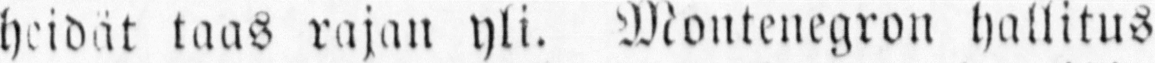heidät taas rajan yli. Montenegron hallitus
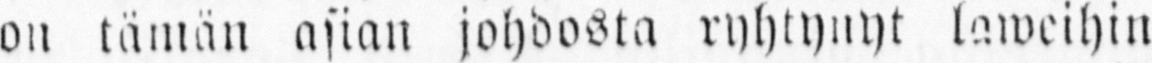on tämän asian johdosta ryhtynyt laweihin
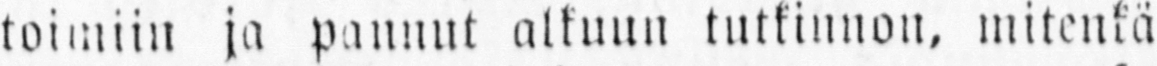toimiin ja pannut alkuun tutkinnon, mitenkä
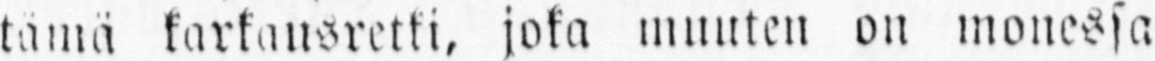tämä karkausretki, joka muuten on monessa
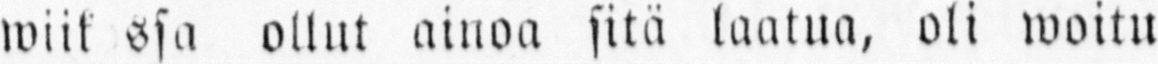wiikossa ollut ainoa sitä laatua, oli woitu
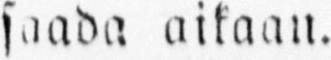saada aikaan.
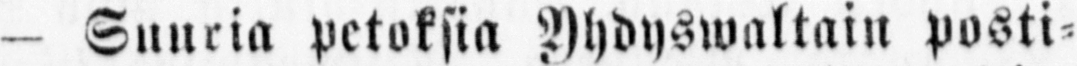— Suuria petoksia Yhdywaltain posti-
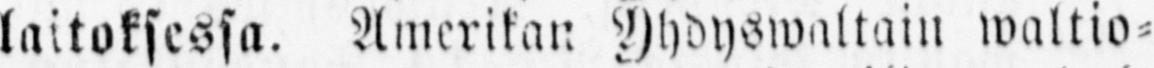laitoksessa. Amerikan Yhdyswaltain waltio-
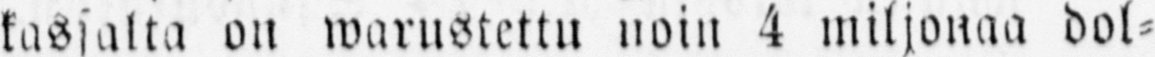kassalta on warustettu noin 4 miljonaa dol-
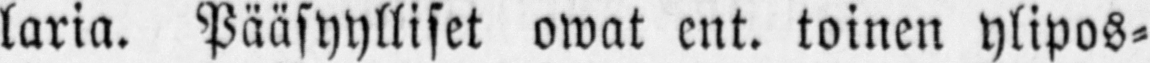laria. Pääsyylliset owat ent. toinen ylipos-
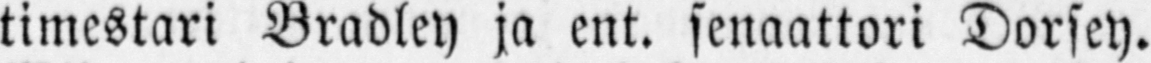timestari Bradley ja ent. senaattori Dorsey.
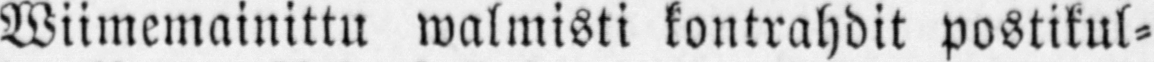Wiimemainittu walmisti kontrahdit postikul-
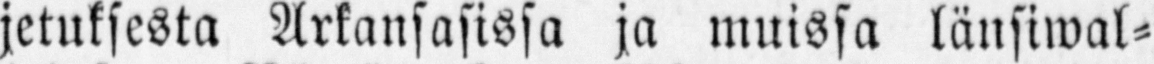jetuksesta Arkansasissa ja muissa länsiwal-
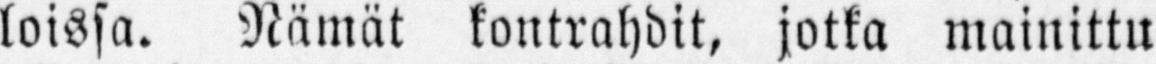loissa. Nämät kontrahdit, jotka mainittu
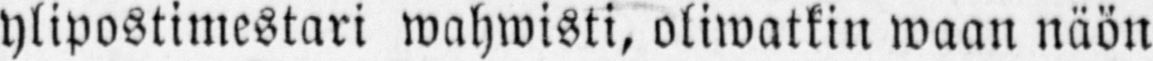ylipostimestari wahwisti, oliwatkin waan näön
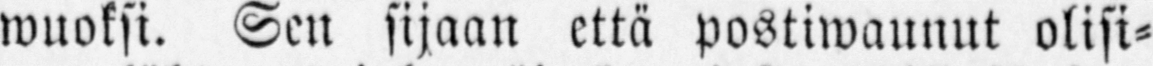wuoksi. Sen sijaan että postiwaunut olisi-
